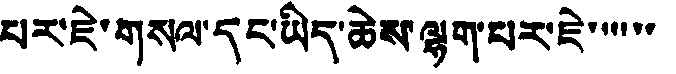པར་ཇེ་གསལ་དང་ཡིད་ཆེས་ལྷག་པར་ཇེ་་་་་་
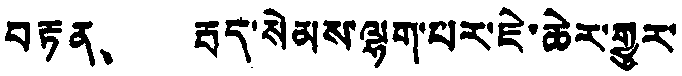བརྟན、 རྦད་སེམས་ལྷག་པར་ཇེ་ཆེར་གྱུར་
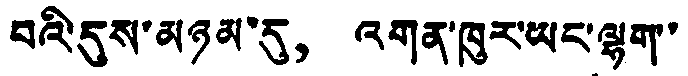བའི་དུས་མཉམ་དུ， འགན་ཁུར་ཡང་ལྷག་
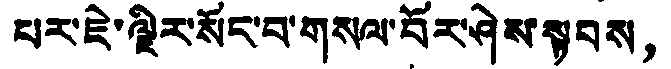པར་ཇེ་ལྡིར་སོང་བ་གསལ་བོར་ཤེས་སྟབས，
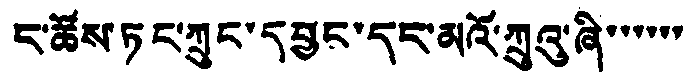ང་ཚོས་ཏང་ཀྲུང་དབྱང་དང་མའོ་ཀྲུའུ་ཞི་་་་་་་
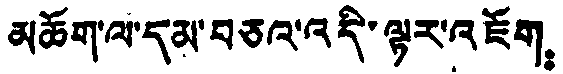མཆོག་ལ་དམ་བཅའ་འདི་ལྟར་འཇོག：
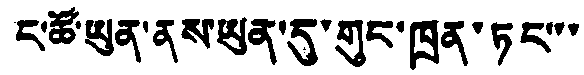ང་ཚོ་ཡུན་ནས་ཡུན་དུ་གུང་ཁྲན་ཏང་་་
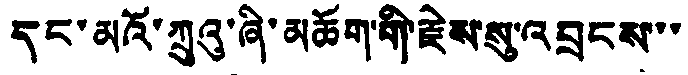དང་མའོ་ཀྲུའུ་ཞི་མཆོག་གི་རྗེས་སུ་འབྲངས་་་
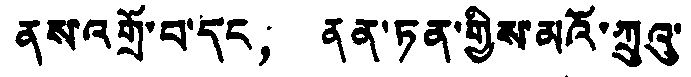ནས་འགྲོ་བ་དང， ནན་ཏན་གྱིས་མའོ་ཀྲུའུ་
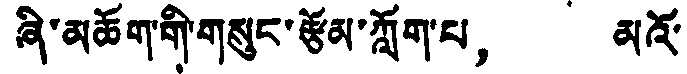ཞི་མཆོག་གི་གསུང་རྩོམ་ཀློག་པ， མའོ་
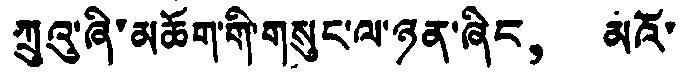ཀྲུའུ་ཞི་མཆོག་གི་གསུང་ལ་ཉན་ཞིང， མའོ་
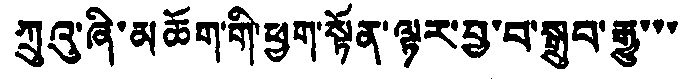ཀྲུའུ་ཞི་མཆོག་གི་ཕྱག་སྟོན་ལྟར་བྱ་བ་སྒྲུབ་རྒྱུ་་་
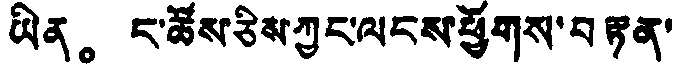ཡིན。 ང་ཚོས་ཅིས་ཀྱང་ལངས་ཕྱོགས་བརྟན་
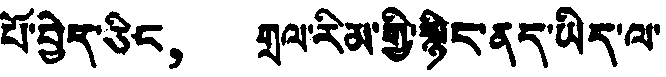པོ་བྱེད་ཅིང， གྲལ་རིམ་གྱི་སྙིང་ནད་ཡིད་ལ་
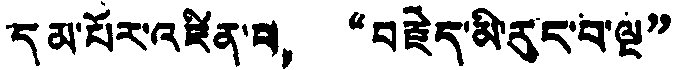དམ་པོར་འཛིན་པ， “བརྗེད་མི་རུང་བ་ལྔ”
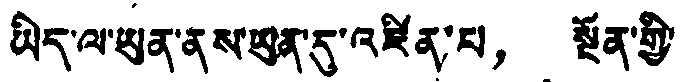ཡིད་ལ་ཡུན་ནས་ཡུན་དུ་འཛིན་པ， སྔོན་གྱི་
